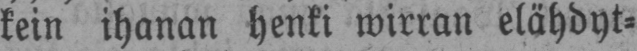kein ihanan henki wirran elähdyt-
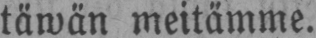täwän meitämme.
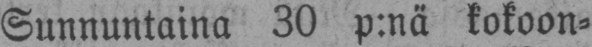Sunnuntaina 30 p:nä kokoon-
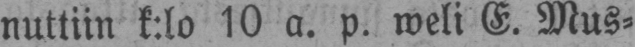nuttiin k.lo 10 a. p. weli E. Mus-
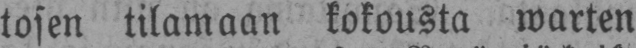tosen tilamaan kokousta warten
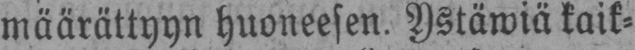määrättyyn huoneesen. Ystäwiä kaik-
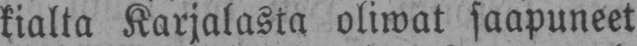kialta Karjalasta oliwat saapuneet
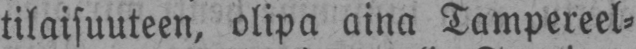tilaisuuteen, olipa aina Tampereel-
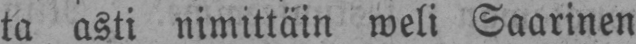ta asti nimittäin weli Saarinen
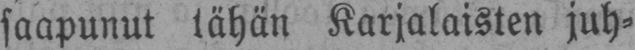saapunut tähän Karjalaisten juh-
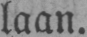laan.
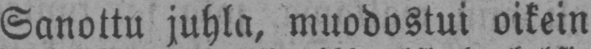Sanottu juhla, muodostui oikein
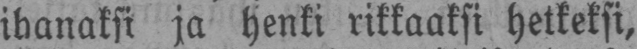ihanaksi ja henki rikkaaksi hetkeksi,
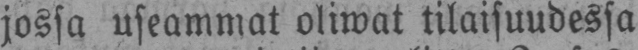jossa useammat oliwat tilaisuudessa
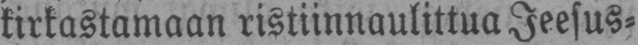kirkastamaan ristiinnaulittua Jeesus-
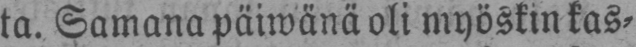ta. Samana päiwänä oli myöskin kas-
